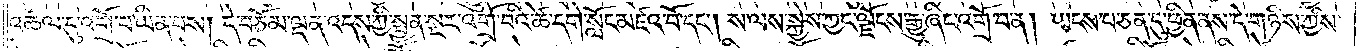འཚལ་དུ་འགྲོ་བ་ཡིན་པས། དེ་བཅོམ་ལྡན་འདས་ཀྱི་སྤྱན་སྔར་འགྲོ་བའི་ཚེ་དགེ་སློང་མཛའ་བོ་དང༌། ས་ལས་སྐྱེས་ཀྱང་ལྗོངས་རྒྱུ་ཞིང་འགྲོ་བ་ན། ཡངས་པ་ཅན་དུ་ཕྱིན་ནས་དེ་གཉིས་ཀྱིས་
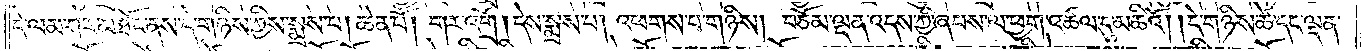དེ་ལམ་ཀར་མཐོང་ནས་དེ་གཉིས་ཀྱིས་སྨྲས་པ། ཆེན་པོ། གར་འགྲོ། དེས་སྨྲས་པ། འཕགས་པ་གཉིས། བཅོམ་ལྡན་འདས་ཀྱི་ཞབས་ལ་ཕྱག་འཚལ་དུ་མཆིའོ། །དེ་གཉིས་ཚེ་དང་ལྡན་
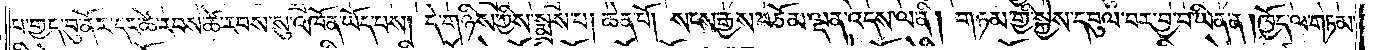པ་གྱད་བུ་ནོར་དང་ཚེ་རབས་ཚེ་རབས་སུ་འཁོན་ཡོད་པས། དེ་གཉིས་ཀྱིས་སྨྲས་པ། ཆེན་པོ། སངས་རྒྱས་བཅོམ་ལྡན་འདས་ལ་ནི། གཏམ་གྱི་སྐྱེས་དབུལ་བར་བྱ་བ་ཡིན་ན། ཁྱོད་ལ་གཏམ་
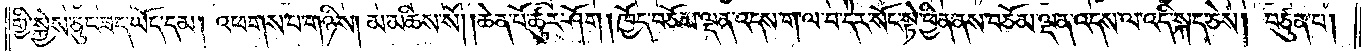གྱི་སྐྱེས་ཅུང་ཟད་ཡོད་དམ། འཕགས་པ་གཉིས། མ་མཆིས་སོ། །ཆེན་པོ་ཚུར་ཤོག །ཁྱོད་བཅོམ་ལྡན་འདས་ག་ལ་བ་དེར་སོང་སྟེ་ཕྱིན་ནས་བཅོམ་ལྡན་འདས་ལ་འདི་སྐད་ཅེས། བཙུན་པ།
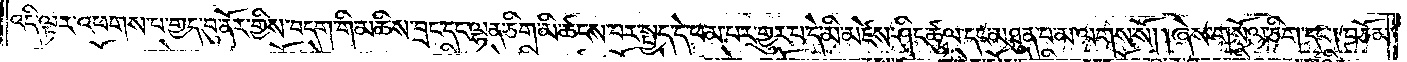འདི་ལྟར་འཕགས་པ་གྱད་བུ་ནོར་གྱིས་བདག་གི་མཆིས་བྲང་དང་ལྷན་ཅིག་མི་ཚངས་པར་སྤྱད་དེ་ཕམ་པར་གྱུར་པ་དེ་མི་མཛེས་ཤིང་ཚུལ་དང་མཐུན་པ་མ་ལགས་སོ། །ཞེས་གསོལ་ཅིག་དང༌། བཅོམ་
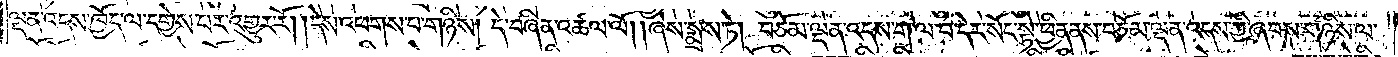ལྡན་འདས་ཁྱོད་ལ་དགྱེས་པར་འགྱུར་རོ། །དེས་འཕགས་པ་གཉིས། དེ་བཞིན་འཚལ་ལོ། །ཞེས་སྨྲས་ཏེ། བཅོམ་ལྡན་འདས་ག་ལ་བ་དེར་སོང་སྟེ་ཕྱིན་ནས་བཅོམ་ལྡན་འདས་ཀྱི་ཞབས་གཉིས་ལ་
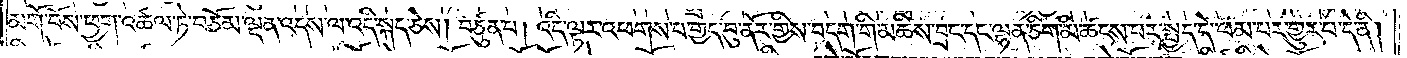མགོ་བོས་ཕྱག་འཚལ་ཏེ་བཅོམ་ལྡན་འདས་ལ་འདི་སྐད་ཅེས། བཙུན་པ། འདི་ལྟར་འཕགས་པ་གྱད་བུ་ནོར་གྱིས་བདག་གི་མཆིས་བྲང་དང་ལྷན་ཅིག་མི་ཚངས་པར་སྤྱད་དེ་ཕམ་པར་གྱུར་པ་དེ་ནི།
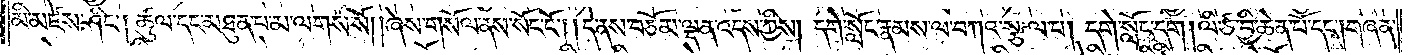མི་མཛེས་ཤིང༌། ཚུལ་དང་མཐུན་པ་མ་ལགས་སོ། །ཞེས་གསོལ་ནས་སོང་ངོ༌། །དེ་ནས་བཅོམ་ལྡན་འདས་ཀྱིས། དགེ་སློང་རྣམས་ལ་བཀའ་སྩལ་པ། དགེ་སློང་དག། ལི་ཙ་བྱི་ཆེན་པོ་དང༌། གཞན་
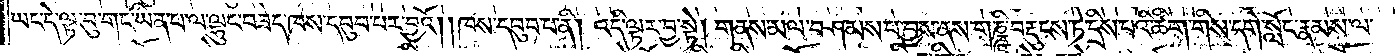ཡང་དེ་ལྟ་བུ་གང་ཡིན་པ་ལ་ལྷུང་བཟེད་ཁས་དབུབ་པར་བྱའོ། །ཁས་དབུབ་པ་ནི། འདི་ལྟར་བྱ་སྟེ། གནས་མལ་བཤམས་པ་བྱས་ནས་གཎྜཱི་བརྡུངས་ཏེ་དྲིས་པའི་ཚིག་གིས་དགེ་སློང་རྣམས་ལ་
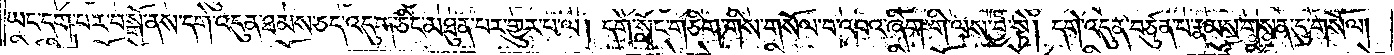ཡང་དག་པར་བསྒོ་ནས་དགེ་འདུན་ཐམས་ཅད་འདུག་ཅིང་མཐུན་པར་གྱུར་པ་ལ། དགེ་སློང་གཅིག་གིས་གསོལ་བ་འབའ་ཞིག་གི་ལས་བྱ་སྟེ། དགེ་འདུན་བཙུན་པ་རྣམས་གསན་དུ་གསོལ།
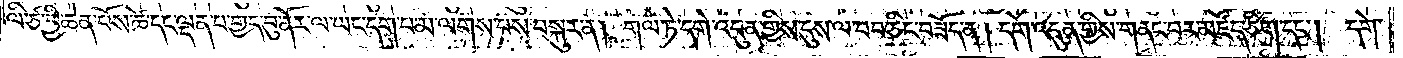ལི་ཙ་བྱི་ཆེན་པོས་ཚེ་དང་ལྡན་པ་གྱད་བུ་ནོར་ལ་ཡང་དག་པ་མ་ལགས་པས་བསྐུར་ན། གལ་ཏེ་དགེ་འདུན་གྱིས་དུས་ལ་བབ་ཅིང་བཟོད་ན། དགེ་འདུན་གྱིས་གནང་བར་མཛོད་ཅིག་དང༌། དགེ་
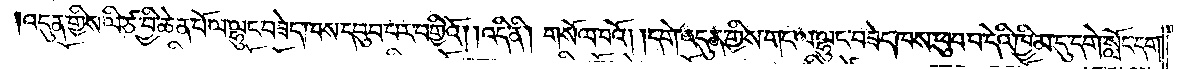འདུན་གྱིས་ལི་ཙ་བྱི་ཆེན་པོ་ལ་ལྷུང་བཟེད་ཁས་དབུབ་པར་བགྱིའོ། །འདི་ནི། གསོལ་བའོ། །དགེ་འདུན་གྱིས་གང་ལ་ལྷུང་བཟེད་ཁས་ཕུབ་པ་དེའི་ཁྱིམ་དུ་དགེ་སློང་དག་
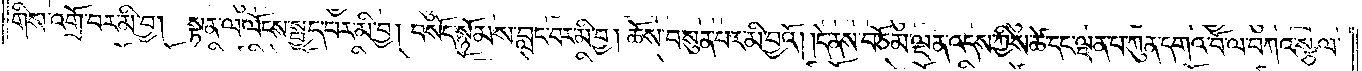གིས་འགྲོ་བར་མི་བྱ། སྟན་ལ་ལོངས་སྤྱད་པར་མི་བྱ། བསོད་སྙོམས་བླང་བར་མི་བྱ། ཆོས་བསུན་པར་མི་བྱའོ། །དེ་ནས་བཅོམ་ལྡན་འདས་ཀྱིས་ཚེ་དང་ལྡན་པ་ཀུན་དགའ་བོ་ལ་བཀའ་སྩལ་
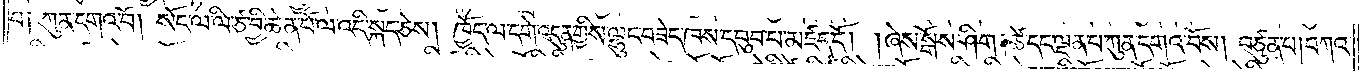པ༑ ཀུན་དགའ་བོ། སོང་ལ་ལི་ཙ་བྱི་ཆེན་པོ་ལ་འདི་སྐད་ཅེས། ཁྱོད་ལ་དགེ་འདུན་གྱིས་ལྷུང་བཟེད་ཁས་དབུབ་པ་མཛད་དོ། །ཞེས་སྒོས་ཤིག །ཚེ་དང་ལྡན་པ་ཀུན་དགའ་བོས། བཙུན་པ། བཀའ་
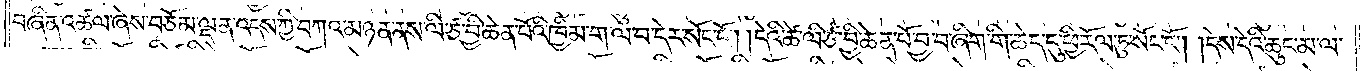བཞིན་འཚལ་ཞེས་བཅོམ་ལྡན་འདས་ཀྱི་བཀའ་མཉན་ནས་ལི་ཙ་བྱི་ཆེན་པོའི་ཁྱིམ་ག་ལ་བ་དེར་སོང་ངོ༌། །དེའི་ཚེ་ལི་ཙ་བྱི་ཆེན་པོ་བྱ་བ་ཞིག་གི་ཆེད་དུ་ཕྱི་རོལ་ཏུ་སོང་ངོ༌། །དེས་དེའི་ཆུང་མ་ལ་
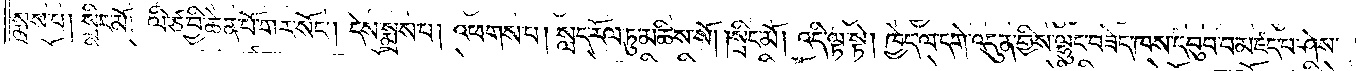སྨྲས་པ། སྲིང་མོ། ལི་ཙ་བྱི་ཆེན་པོ་གར་སོང༌། དེས་སྨྲས་པ། འཕགས་པ། སླད་རོལ་ཏུ་མཆིས་སོ། །སྲིང་མོ། འདི་ལྟ་སྟེ། ཁྱེད་ལ་དགེ་འདུན་གྱིས་ལྷུང་བཟེད་ཁས་དབུབ་པ་མཛད་པ་ཤེས་
